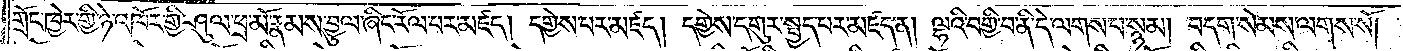གྲོང་ཁྱེར་གྱི་ཉེ་འཁོར་གྱི་ཤུལ་ཕྲ་མོ་རྣམས་བྱུལ་ཞིང་རོལ་པར་མཛད། དགྱེས་པར་མཛད། དགྱེས་དགུར་སྤྱད་པར་མཛད་ན། ལྷའི་བགྱི་བ་ནི་དེ་ལགས་པ་སྙམ། བདག་སེམས་ལགས་སོ། །
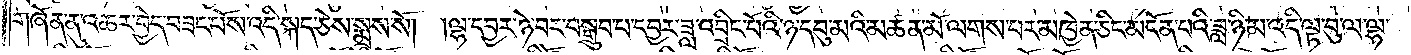གཞོན་ནུ་འཆར་བྱེད་བཟང་པོས་འདི་སྐད་ཅེས་སྨྲས་སོ། །ལྷ་དབྱར་ཉེ་བར་བསྒྲུབ་པ་དབྱར་ཟླ་འབྲིང་པོའི་ཉ་དབུ་མའི་མཚན་མོ་ལགས་པར་མཁྱེན་ཅིང་མངོན་པའི་ཟླ་ཉི་མ་འདི་ལྟ་བུ་ལ་ལྷ་
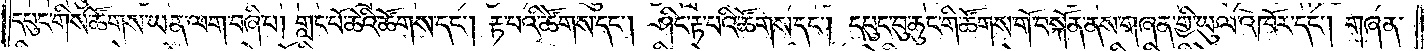དཔུང་གིས་ཚོགས་ཡན་ལག་བཞི་པ། གླང་པོ་ཆེའི་ཚོགས་དང༌། རྟ་པའི་ཚོགས་དང༌། ཤིང་རྟ་པའི་ཚོགས་དང༌། དཔུང་བུ་ཆུང་གི་ཚོགས་གོ་བསྐོན་ནས་གཞན་གྱི་ཡུལ་འཁོར་དང༌། གཞན་
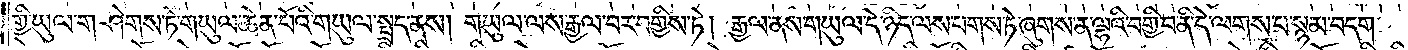གྱི་ཡུལ་གཤེགས་ཏེ་གཡུལ་ཆེན་པོའི་གཡུལ་སྤྲད་ནས། གཡུལ་ལས་རྒྱལ་བར་བགྱིས་ཏེ། རྒྱལ་ནས་གཡུལ་དེ་ཉིད་ལས་པགས་ཏེ་ཞུགས་ན་ལྷའི་བགྱི་བ་ནི་དེ་ལགས་པ་སྙམ་བདག་
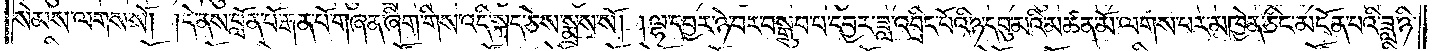སེམས་ལགས་སོ། །དེ་ནས་བློན་པོ་རྒན་པོ་གཞན་ཞིག་གིས་འདི་སྐད་ཅེས་སྨྲས་སོ། །ལྷ་དབྱར་ཉེ་བར་བསྒྲུབ་པ་དབྱར་ཟླ་འབྲིང་པོའི་ཉ་དབུ་མའི་མཚན་མོ་ལགས་པར་མཁྱེན་ཅིང་མངོན་པའི་ཟླ་ཉི་
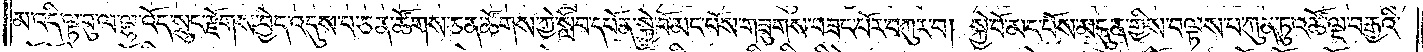མ་འདི་ལྟ་བུ་ལ་ལྷ་འོད་སྲུང་རྫོགས་བྱེད་འདུས་པ་ཅན་ཚོགས་ཅན་ཚོགས་ཀྱི་སློབ་དཔོན་སྐྱེ་བོ་མང་པོས་གཟུགས་བཟང་པོར་བཀུར་བ། སྐྱེ་བོ་མང་པོས་མདུན་གྱིས་བལྟས་པ་ཀུན་ཏུ་འཚོ་ལྔ་བརྒྱའི་
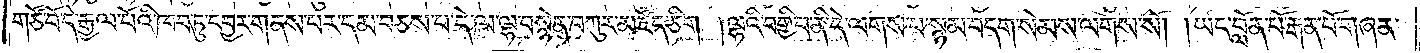གཙོ་བོ་དེ་རྒྱལ་པོའི་ཁབ་ཏུ་དབྱར་གནས་པར་དམ་བཅས་པ་དེ་ལ་ལྷ་བསྙེན་བཀུར་མཛོད་ཅིག །ལྷའི་བགྱི་བ་ནི་དེ་ལགས་པ་སྙམ་བདག་སེམས་ལགས་སོ། །ཡང་བློན་པོ་རྒན་པོ་གཞན་
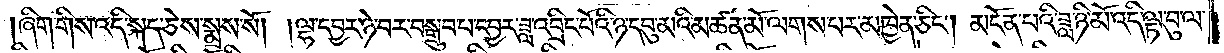ཞིག་གིས་འདི་སྐད་ཅེས་སྨྲས་སོ། །ལྷ་དབྱར་ཉེ་བར་བསྒྲུབ་པར་དབྱར་ཟླ་འབྲིང་པོའི་ཉ་དབུ་མའི་མཚན་མོ་ལགས་པར་མཁྱེན་ཅིང༌། མངོན་པའི་ཟླ་ཉི་མོ་འདི་ལྟ་བུ་ལ་
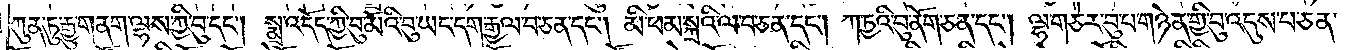ཀུན་ཏུ་རྒྱུ་གནག་ལྷས་ཀྱི་བུ་དང༌། སྨྲ་འདོད་ཀྱི་བུ་མོའི་བུ་ཡང་དག་རྒྱལ་བ་ཅན་དང༌། མི་ཕམ་སྐྲའི་ལ་བ་ཅན་དང༌། ཀ་ཏྱའི་བུ་ནོག་ཅན་དང༌། ལྷ་གཅེར་བུ་པ་གཉེན་གྱི་བུ་འདུས་པ་ཅན་
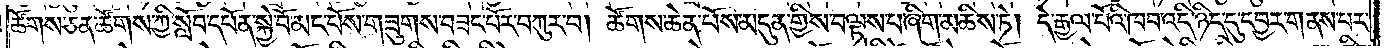ཚོགས་ཅན་ཚོགས་ཀྱི་སློབ་དཔོན་སྐྱེ་བོ་མང་པོས་གཟུགས་བཟང་པོར་བཀུར་བ། ཚོགས་ཆེན་པོས་མདུན་གྱིས་བལྟས་པ་ཞིག་མཆིས་ཏེ། དེ་རྒྱལ་པོའི་ཁབ་འདི་ཉིད་དུ་དབྱར་གནས་པར་
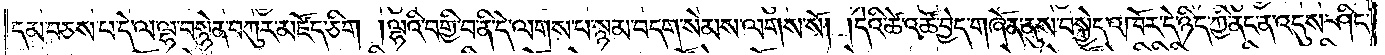དམ་བཅས་པ་དེ་ལ་ལྷ་བསྙེན་བཀུར་མཛོད་ཅིག །ལྷའི་བགྱི་བ་ནི་དེ་ལགས་པ་སྙམ་བདག་སེམས་ལགས་སོ། །དེའི་ཚེ་འཚོ་བྱེད་གཞོན་ནུས་བསྐྱེད་འཁོར་དེ་ཉིད་ཀྱི་ནང་ན་འདུས་ཤིང་
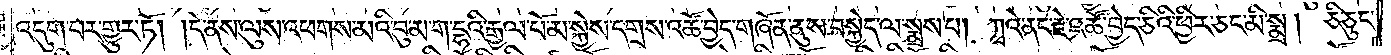འདུག་པར་གྱུར་ཏོ། །དེ་ནས་ལུས་འཕགས་མའི་བུ་མ་ག་དྷའི་རྒྱལ་པོ་མ་སྐྱེས་དགྲས་འཚོ་བྱེད་གཞོན་ནུས་བསྐྱེད་ལ་སྨྲས་པ། ཀྭའི་ནང་རྗེ་འཚོ་བྱེད་ཅིའི་ཕྱིར་ཅང་མི་སྨྲ། ཅི་ཅུང་
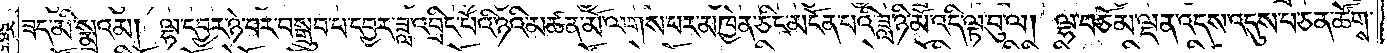ཟད་མི་སྨྲའམ། ལྷ་དབྱར་ཉེ་བར་བསྒྲུབ་པ་དབྱར་ཟླ་འབྲིང་པོའི་ཉའི་མཚན་མོ་ལགས་པར་མཁྱེན་ཅིང་མངོན་པའི་ཟླ་ཉི་མོ་འདི་ལྟ་བུ་ལ། ལྷ་བཅོམ་ལྡན་འདས་འདུས་པ་ཅན་ཚོགས་
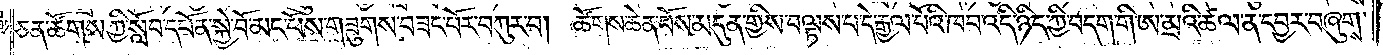ཅན་ཚོགས་ཀྱི་སློབ་དཔོན་སྐྱེ་བོ་མང་པོས་གཟུགས་བཟང་པོར་བཀུར་བ། ཚོགས་ཆེན་པོས་མདུན་གྱིས་བལྟས་པ་དེ་རྒྱལ་པོའི་ཁབ་འདི་ཉིད་ཀྱི་བདག་གི་ཨ་མྲའི་ཚལ་ན་དབྱར་བཞུགས་
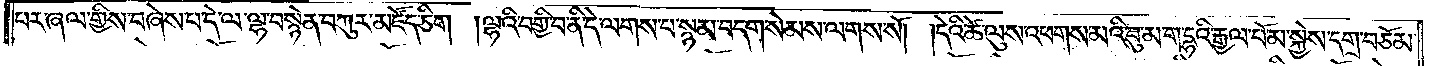པར་ཞལ་གྱིས་བཞེས་པ་དེ་ལ་ལྷ་བསྙེན་བཀུར་མཛོད་ཅིག །ལྷའི་བགྱི་བ་ནི་དེ་ལགས་པ་སྙམ་བདག་སེམས་ལགས་སོ། །དེའི་ཚེ་ལུས་འཕགས་མའི་བུ་མ་ག་དྷའི་རྒྱལ་པོ་མ་སྐྱེས་དགྲ་བཅོམ་
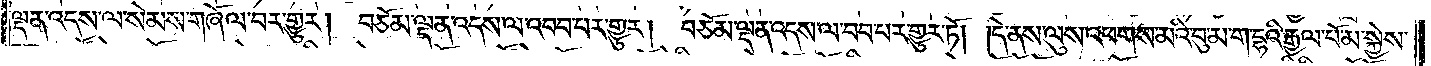ལྡན་འདས་ལ་སེམས་གཞོལ་བར་གྱུར། བཅོམ་ལྡན་འདས་ལ་འབབ་པར་གྱུར། བཅོམ་ལྡན་འདས་ལ་བབ་པར་གྱུར་ཏོ། །དེ་ནས་ལུས་འཕགས་མའི་བུ་མ་ག་དྷའི་རྒྱལ་པོ་མ་སྐྱེས་
